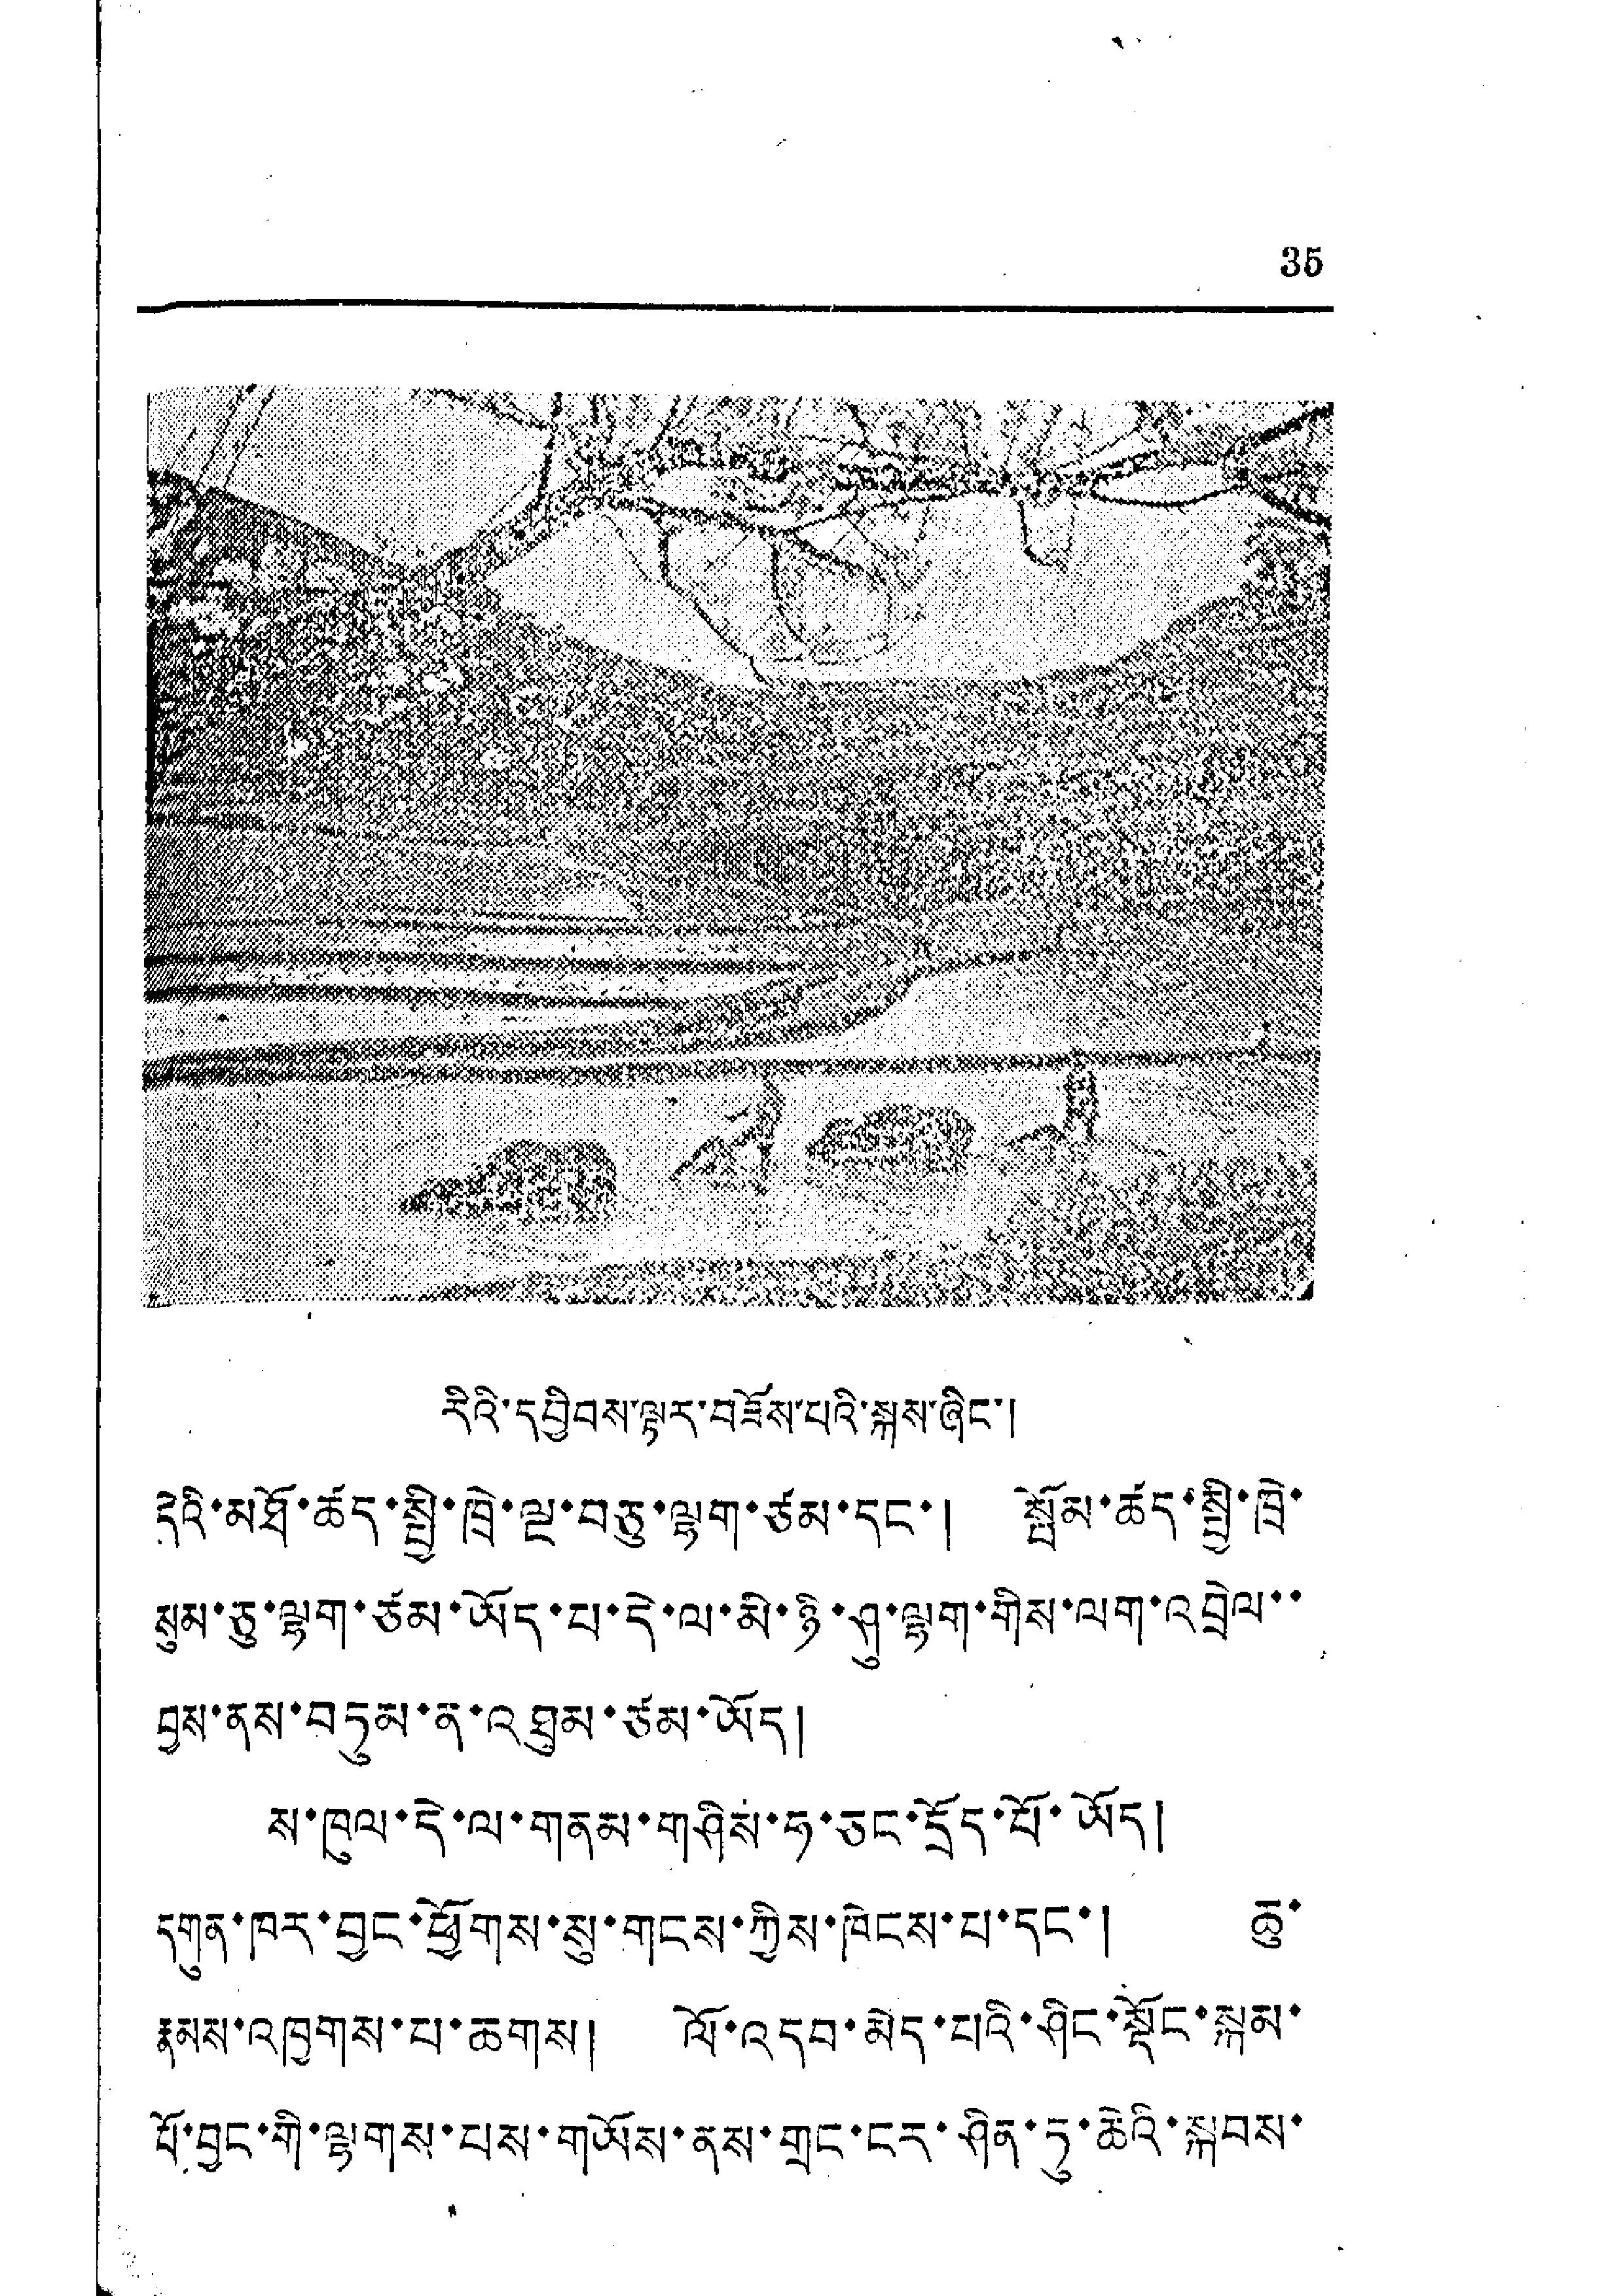35
རིའི་དབྱིབས་ལྟར་བཟོས་པའི་སྐས་ཞིང་།
དེའི་མཐོ་ཚད་སྤྱི་ཁྲེ་ལྔ་བཅུ་ལྷག་ཙམ་དང་། སྤོམ་ཚད་སྤྱི་ཁྲེ་
སུམ་ཅུ་ལྷག་ཙམ་ཡོད་པ་དེ་ལ་མི་ཉི་ཤུ་ལྷག་གིས་ལག་འབྲེལ་་
བྱས་ནས་བཏུམ་ན་འཐུམ་ཙམ་ཡོད།
ས་ཁུལ་དེ་ལ་གནམ་གཤིས་ཧ་ཅང་དྲོད་པོ་ཡོད།
དགུན་ཁུར་བྱང་ཕྱོགས་སུ་གངས་ཀྱིས་ཁེངས་པ་དང་། ཆུ་
རྣམས་འཁྱགས་པ་ཆགས། ལོ་འདབ་མེད་པའི་ཤིང་སྡོང་སྐམ་
པོ་བྱང་གི་ལྷགས་པས་གཡོས་ནས་གྲང་ངར་ཤིན་ཏུ་ཆེའི་སྐབས་
